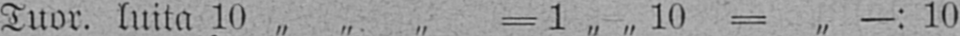Tuor. luita 10 „ „ „ = 1 „ „ 10 = „ —: 10
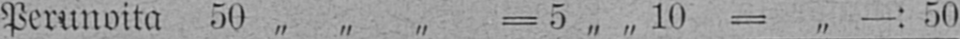Perunoita 50 „ „ „ = 5 „ „ 10 = „ —: 50
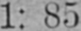1: 85
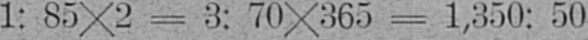1: 85× 2 = 3: 70× 365 = 1,350: 50
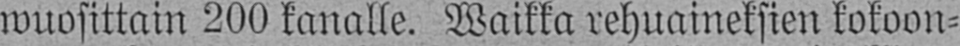wuosittain 200 kanalle. Waikka rehuaineksien kokoon-
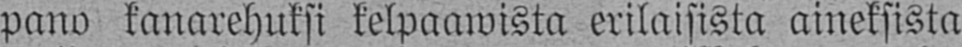pano kanarehuksi kelpaawista erilaisista aineksista
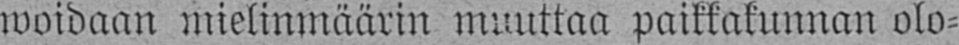woidaan mielinmäärin muuttaa paikkakunnan olo-
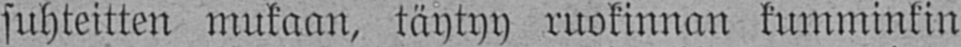suhteitten mukaan, täytyy ruokinnan kumminkin
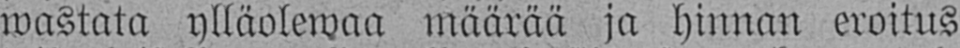wastata ylläolewaa määrää ja hinnan eroitus
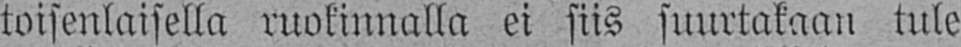toisenlaisella ruokinnalla ei siis suurtakaan tule
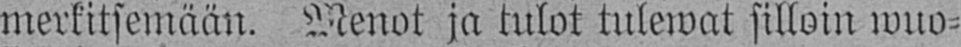merkitsemään. Menot ja tulot tulewat silloin wuo-
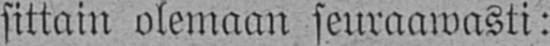sittain olemaan seuraawasti:
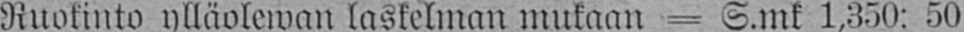Ruokinto ylläolewan laskelman mukaan = S.mk 1,350: 50
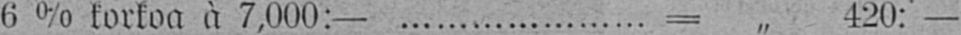6 % korkoa ä 7,000:— = „ 420: —
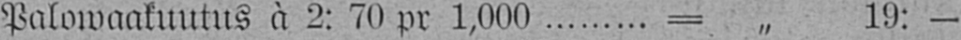Palowaakuutus ä 2: 70 pr 1,000 = „ 19: —
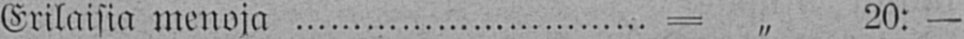Erilaisia menoja = „ 20: —
